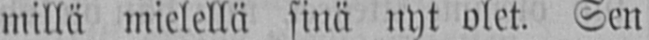millä mielellä sinä nyt olet. Sen
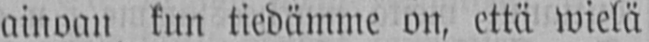ainoan kun tiedämme on, että wielä
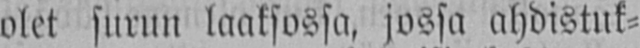olet surun laaksossa, jossa ahdistuk-
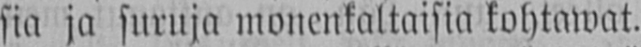sia ja suruja monenkaltaisia kohtawat.
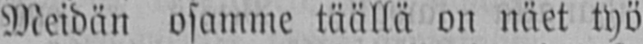Meidän osamme täällä on näet työ
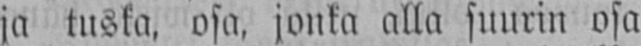ja tuska, osa, jonka alla suurin osa
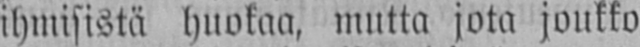ihmisistä huokaa, mutta jota joukko
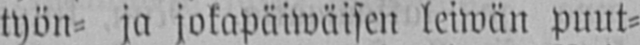työn ja jokapaiwäisen leiwän puut-
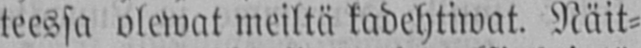teessa olewat meiltä kadehtiwat. Näit-
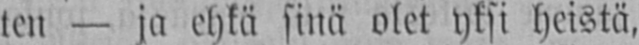ten — ja ehkä sinä olet yksi heistä,
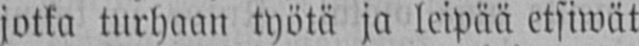jotka turhaan työtä ja leipää etsiwät
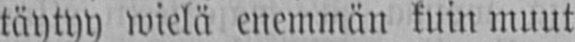täytyy wielä enemmän kuin muut
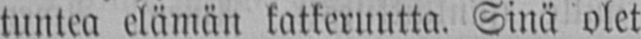tuntea elämän katkeruutta. Sinä olet
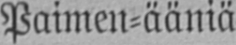Paimen-ääniä.
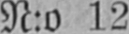N:o 12.
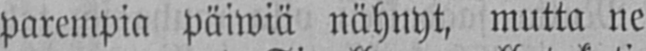parempia päiwiä nähnyt, mutta ne
